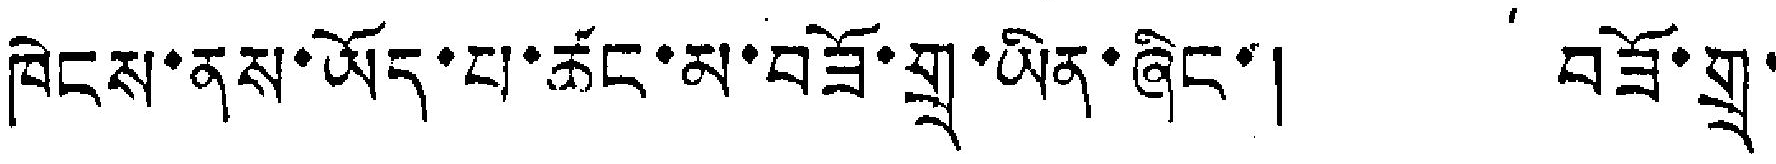ཁེངས་ནས་ཡོད་པ་ཚང་མ་བཟོ་གྲྭ་ཡིན་ཞིང་། བཟོ་གྲྭ་
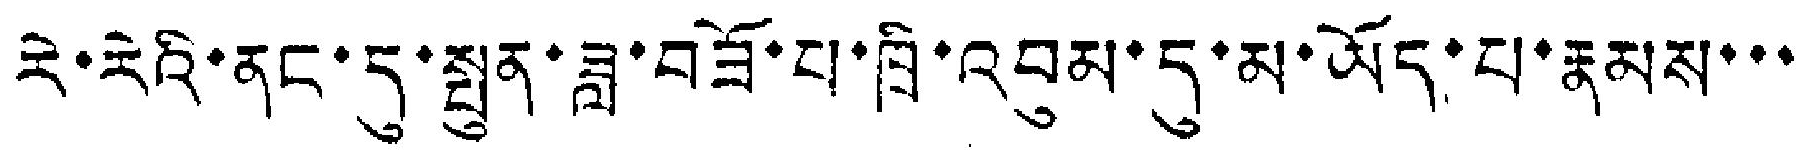རེ་རེའི་ནང་དུ་སྤུན་ཟླ་བཟོ་པ་ཁྲི་འབུམ་དུ་མ་ཡོད་པ་རྣམས་་་
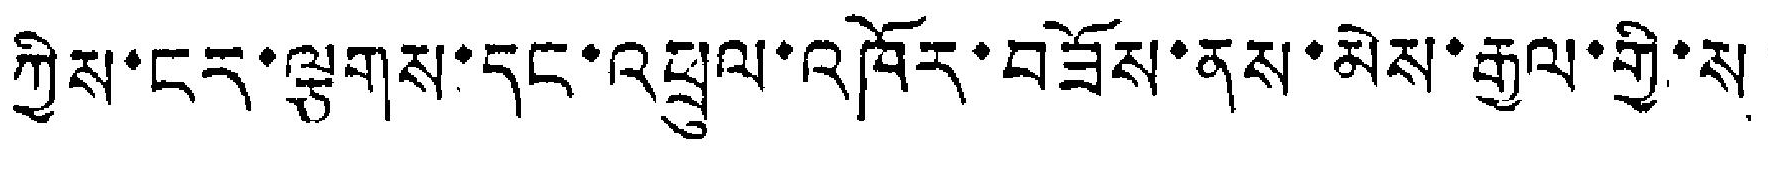ཀྱིས་ངར་ལྕགས་དང་འཕྲུལ་འཁོར་བཟོས་ནས་མེས་རྒྱལ་གྱི་ས་
